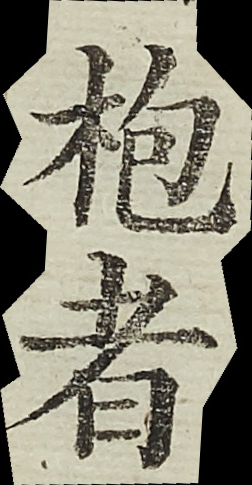枹者
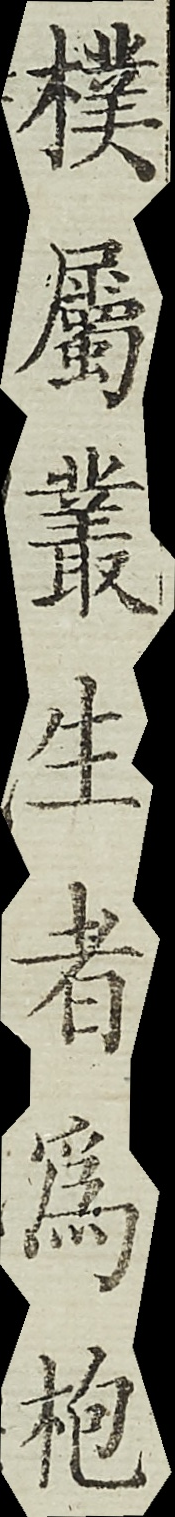樸屬叢生者為枹
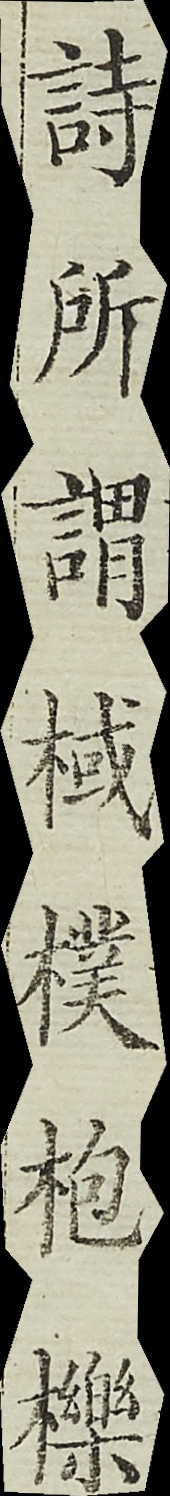詩所謂棫樸枹櫟
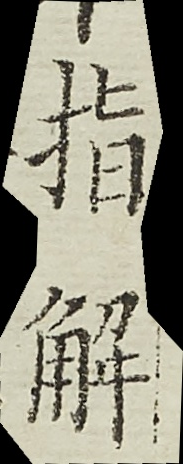指解
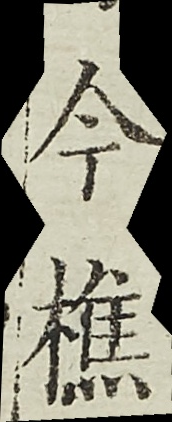今樵
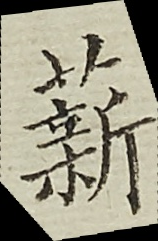薪
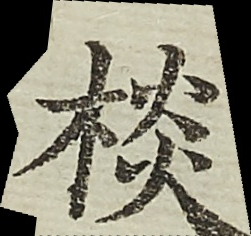棪
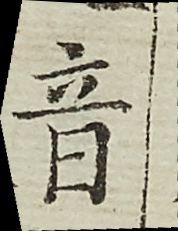音
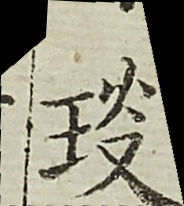琰
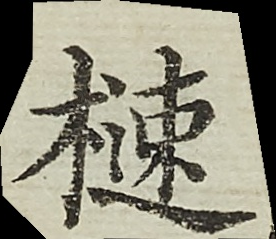㯈
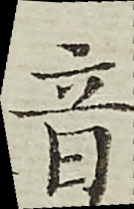音
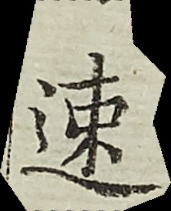速
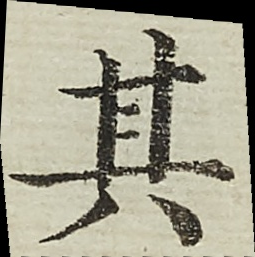其
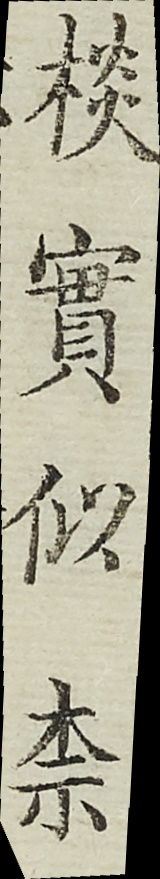棪實似柰
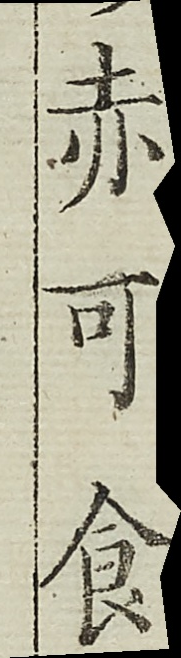赤可食
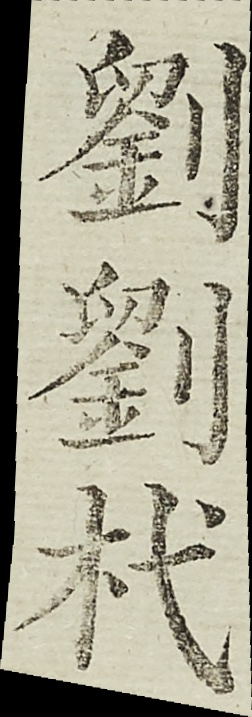劉劉杙
